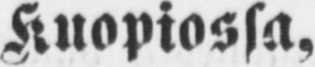Kuopiossa,
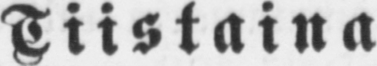Tiistaina
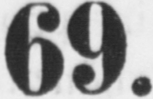N:o 69.
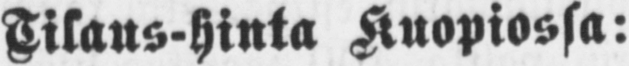Tilaus-Hinta Kuopiossa:
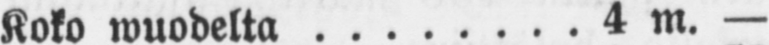Koko wuodelta 4 m .—
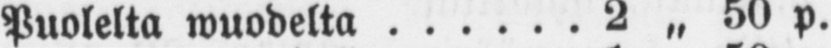Puolelta nmodelta 2 „ 50 p.
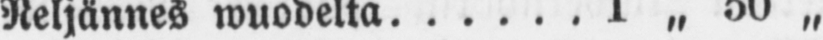Neljännes muodelta 1 „ o" „
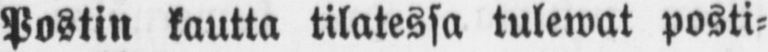Postin kautta tilatessa tulewat posti-
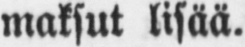maksut lisää.
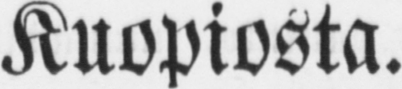Kuopiosta.
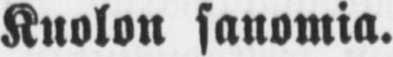Kuolon sanomia.
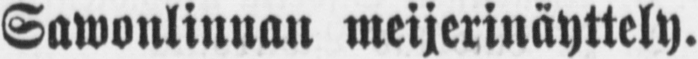Sawonlinnan meijerinäyttely.
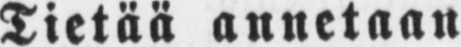Tietää annetaan
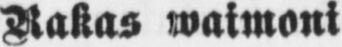Rakas waimoni
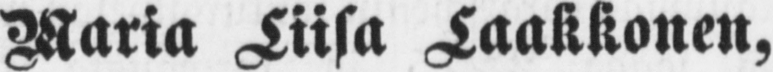Maria Liisa Laakkonen,
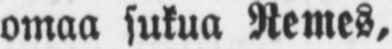omaa sukua Remes,
